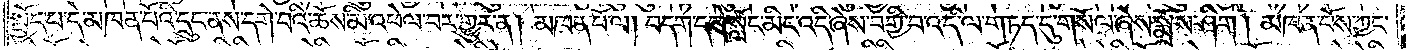སྤྱོད་པ་དེ་མཁན་པོའི་དྲུང་ནས་དགེ་བའི་ཆོས་མི་འཕེལ་བར་གྱུར་ན། མཁན་པོ་ལ། བདག་དགེ་སློང་མིང་འདི་ཞེས་བགྱི་བ་འདི་ལ་གཏད་དུ་གསོལ་ཞེས་སྨྲོས་ཤིག །མཁན་པོས་ཀྱང་
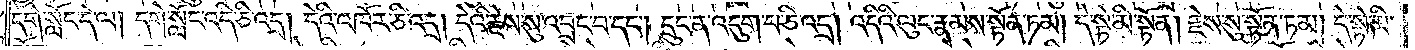དགེ་སློང་དེ་ལ། དགེ་སློང་འདི་ཅི་འདྲ། དེའི་འཁོར་ཅི་འདྲ། དེའི་རྗེས་སུ་འབྲང་བ་དང༌། དྲུང་ན་འདུག་པ་ཅི་འདྲ། འདིའི་ལུང་རྣམས་སྟོན་ཏམ། དེ་སྟེ་མི་སྟོན། རྗེས་སུ་སྟོན་ཏམ། དེ་སྟེ་མི་
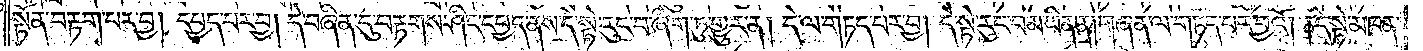སྟོན་པ་བརྟག་པར་བྱ། དཔྱད་པར་བྱ། དེ་བཞིན་དུ་བརྟགས་དཔྱད་ནས་དེ་སྟེ་རུང་བ་ཞིག་ཏུ་གྱུར་ན། དེ་ལ་གཏད་པར་བྱ། དེ་སྟེ་རུང་བ་མ་ཡིན་ན། གཞན་ལ་གཏད་པར་བྱའོ། །དེ་སྟེ་མཁན་
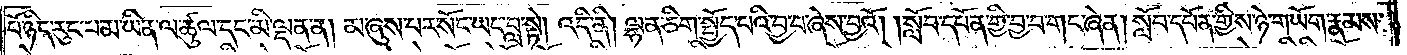པོ་ཉིད་རུང་བ་མ་ཡིན་ལ་ཚུལ་དང་མི་ལྡན་ན། མ་ཞུས་པར་སོང་ཡང་བླ་སྟེ། འདི་ནི། ལྷན་ཅིག་སྤྱོད་པའི་བྱ་བ་ཞེས་བྱའོ། །སློབ་དཔོན་གྱི་བྱ་བ་གང་ཞེ་ན། སློབ་དཔོན་གྱིས་ཉེ་གཡོག་རྣམས་
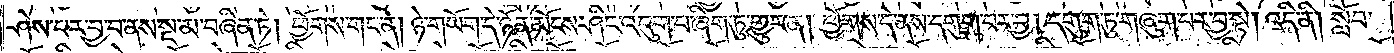ཤེས་པར་བྱ་བ་ནས་སྔ་མ་བཞིན་ཏེ༑ ཕྱོགས་གང་ན། ཉེ་གཡོག་དེ་ཉོན་མོངས་ཤིང་འདུག་པ་ཞིག་ཏུ་གྱུར་ན། ཕྱོགས་དེ་ནས་དགུག་པར་བྱ། དགུག་ཏུ་གཞུག་པར་བྱ་སྟེ། འདི་ནི། སློབ་
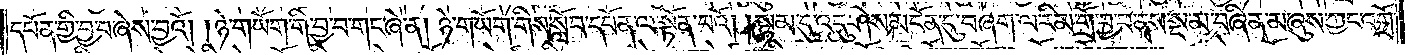དཔོན་གྱི་བྱ་བ་ཞེས་བྱའོ། །ཉེ་གཡོག་གི་བྱ་བ་གང་ཞེ་ན། ཉེ་གཡོག་གིས་སློབ་དཔོན་ལ་སྟོན་པའོ། །སྙམ་དུ་འདུ་ཤེས་མངོན་དུ་བཞག་ལ་རིམ་གྲོ་བྱ་བ་ནས་སྔ་མ་བཞིན་མ་ཞུས་ཀྱང་འགྲོ་
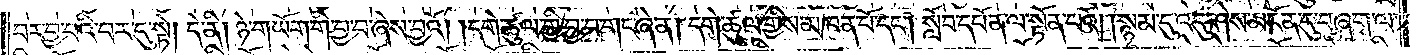བར་བྱ་པའི་བར་དུ་སྟེ། དེ་ནི། ཉེ་གཡོག་གི་བྱ་བ་ཞེས་བྱའོ། །དགེ་ཚུལ་གྱི་བྱ་བ་གང་ཞེ་ན། དགེ་ཚུལ་གྱིས་མཁན་པོ་དང༌། སློབ་དཔོན་ལ་སྟོན་པའོ། །སྙམ་དུ་འདུ་ཤེས་མངོན་དུ་བཞག་ལ་
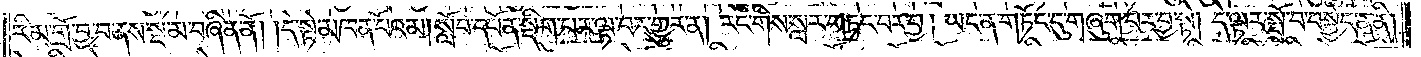རིམ་གྲོ་བྱ་བ་ནས་སྔ་མ་བཞིན་ནོ། །དེ་སྟེ་མཁན་པོའམ། སློབ་དཔོན་སྡིག་པར་ལྟ་བར་གྱུར་ན། རང་གིས་སླར་གཏང་བར་བྱ། ཡང་ན་གཏོང་དུ་འཇུག་པར་བྱ་སྟེ། དེ་ལྟར་སྤྲོ་བ་བསྐྱེད་ན་ནི།
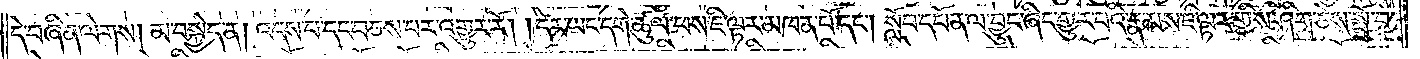དེ་བཞིན་ལེགས། མ་སྐྱེད་ན། འདས་པ་དང་བཅས་པར་འགྱུར་རོ། །དེར་ཡང་དགེ་ཚུལ་ཕས་ཇི་ལྟར་མཁན་པོ་དང༌། སློབ་དཔོན་ལ་བྱུང་ཞིང་གྱུར་པའི་རྣམས་ཇི་ལྟར་གྱིས་ཤིག་ཅེས་སྤྲོ་བ་
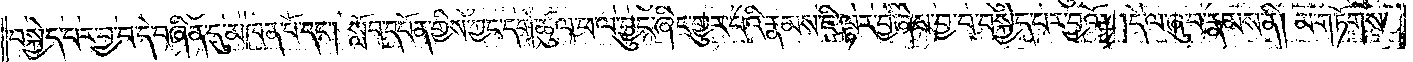བསྐྱེད་པར་བྱ་བ་དེ་བཞིན་དུ་མཁན་པོ་དང༌། སློབ་དཔོན་གྱིས་ཀྱང་དགེ་ཚུལ་ཕ་ལ་བྱུང་ཞིང་གྱུར་པའི་རྣམས་ཇི་ལྟར་བྱ་ཞེས་བྱ་བ་བསྐྱེད་པར་བྱའོ། །དེ་ལ་ཞུ་བ་རྣམས་ནི། མ་གཏོགས། །
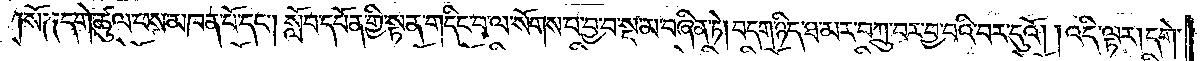སོ༑ ༑དགེ་ཚུལ་ཕས་མཁན་པོ་དང༌། སློབ་དཔོན་གྱི་སྟན་གདིང་བ་ལ་སོགས་པ་བྱ་བ་སྔ་མ་བཞིན་ཏེ། བདག་ཉིད་ཐ་མར་བཀྲུ་བར་བྱ་བའི་བར་དུའོ། །འདི་ལྟར། དགེ་
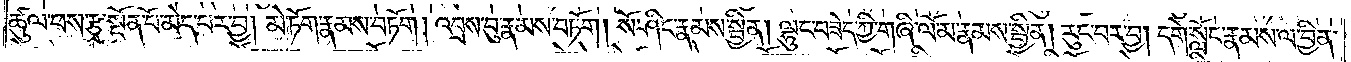ཚུལ་ཕས་རྩྭ་སྔོན་པོ་མེད་པར་བྱ། མེ་ཏོག་རྣམས་བཏོག། འབྲས་བུ་རྣམས་བཏོག། སོ་ཤིང་རྣམས་སྦྱིན། ལྷུང་བཟེད་ཀྱི་གཞི་ལོ་མ་རྣམས་སྦྱིན། རུང་བར་བྱ། དགེ་སློང་རྣམས་ལ་བྱིན་
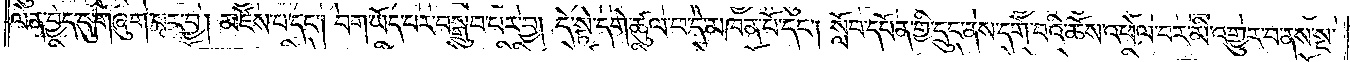ལེན་བྱེད་དུ་གཞུག་པར་བྱ། མཛེས་པ་དང༌། བག་ཡོད་པར་བསྒྲུབ་པར་བྱ། དེ་སྟེ་དགེ་ཚུལ་ཕ་དེ་མཁན་པོ་དང༌། སློབ་དཔོན་གྱི་དྲུང་ནས་དགེ་བའི་ཆོས་འཕེལ་བར་མི་འགྱུར་བ་ནས་སྔ་
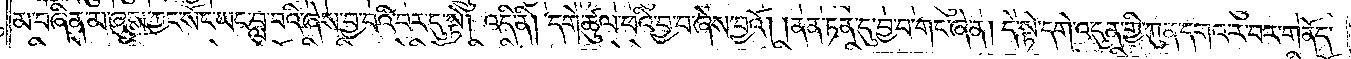མ་བཞིན་མ་ཞུས་ཀྱང་སོང་ཡང་བླ་བའི་ཞེས་བྱ་བའི་བར་དུ་སྟེ། འདི་ནི། དགེ་ཚུལ་ཕའི་བྱ་བ་ཞེས་བྱའོ། །ནན་ཏན་དུ་བྱ་བ་གང་ཞེ་ན། དེ་སྟེ་དགེ་འདུན་གྱི་ཀུན་དགའ་ར་བར་གནོད་
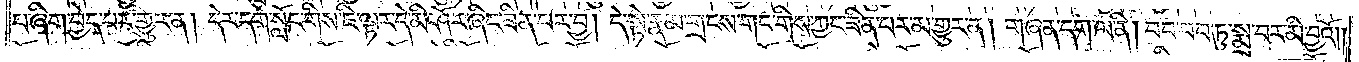པ་ཞིག་བྱེད་པར་གྱུར་ན། དེར་དགེ་སློང་གིས་ཇི་ལྟར་དེ་མི་ཤོར་ཞིང་ཟིན་པར་བྱ། དེ་སྟེ་རྣམ་གྲངས་གང་གིས་ཀྱང་ཟིན་པར་མ་གྱུར་ན། གཞན་དག་ལ་ནི། བབ་བབ་ཏུ་སྨྲ་བར་མི་བྱའོ༎
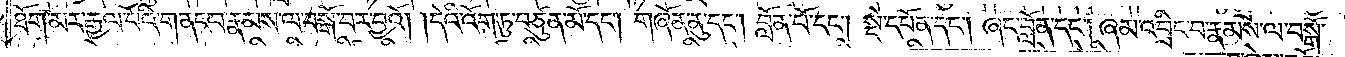ཐོག་མར་རྒྱལ་པོའི་གནང་བ་རྣམས་ལ་བསྒོ་བར་བྱའོ། །དེའི་འོག་ཏུ་བཙུན་མོ་དང༌། གཞོན་ནུ་དང༌། བློན་པོ་དང༌། སྡེ་དཔོན་དང༌། ཞང་བློན་དང༌། ཞམ་འབྲིང་བ་རྣམས་ལ་བསྒོ་
